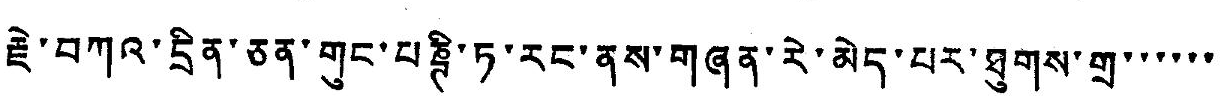རྗེ་བཀའ་དྲིན་ཅན་གུང་པཎྚི་ཏ་རང་ནས་གཞན་རེ་མེད་པར་ཐུགས་གྲ་་་་་་
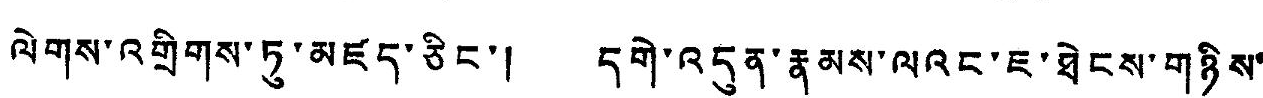ལེགས་འགྲིགས་ཏུ་མཛད་ཅིང་། དགེ་འདུན་རྣམས་ལའང་ཇ་ཐེངས་གཉིས་
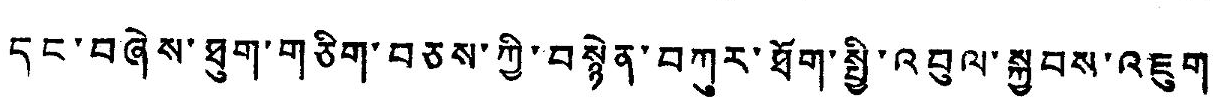དང་བཞེས་ཐུག་གཅིག་བཅས་ཀྱི་བསྙེན་བཀུར་ཐོག་སྤྱི་འབུལ་སྐྱབས་འཇུག་
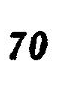70
